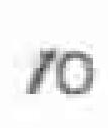10
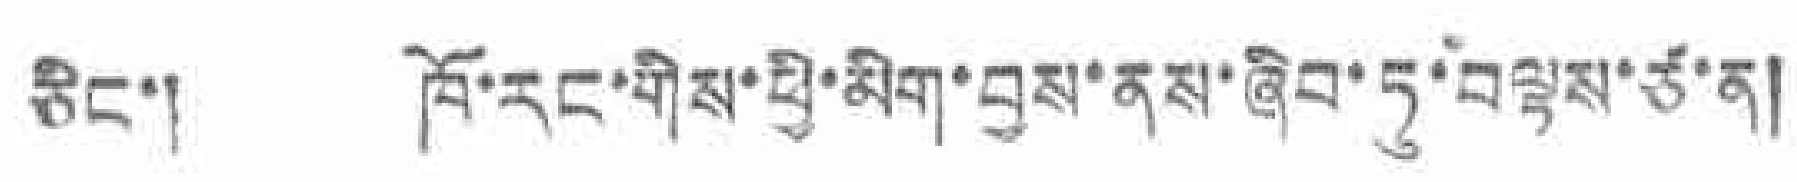ཅིང་། ཁོ་རང་གིས་ཕྱི་མིག་བྱས་ནས་ཞིབ་ཏུ་བལྟས་ཙ་ན།
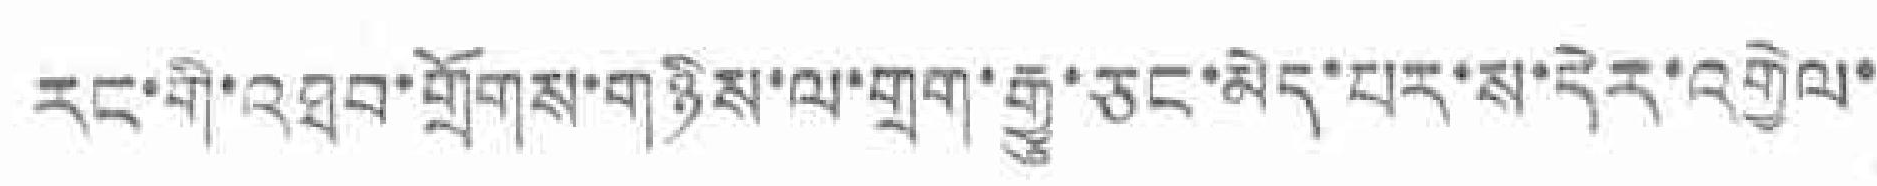རང་གི་འཐབ་གྲོགས་གཉིས་ལ་གྲག་རྒྱུ་ཅང་མེད་པར་ས་དེར་འགྱེལ་
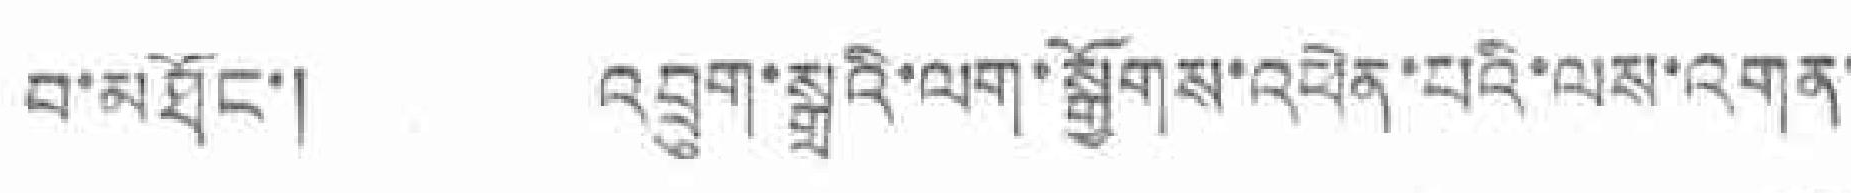བ་མཐོང་། འབྲུག་སྒྲའི་ལག་སྒྱོགས་འཕེན་པའི་ལས་འགན་
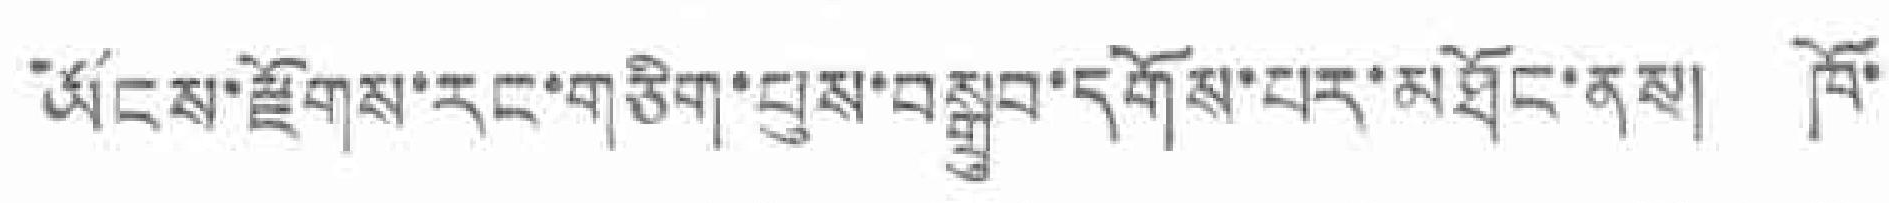ཡོངས་རྫོགས་རང་གཅིག་པུས་བསྒྲུབ་དགོས་པར་མཐོང་ནིས། ཁོ་
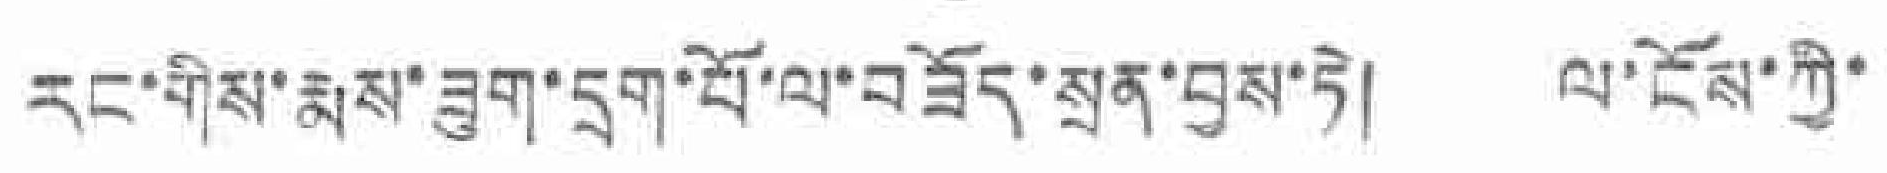རང་གིས་རྨས་ཟུག་དྲག་པོ་ལ་བཟོད་སྲན་བྱས་ཏེ། ལ་ངོས་ཀྱི་
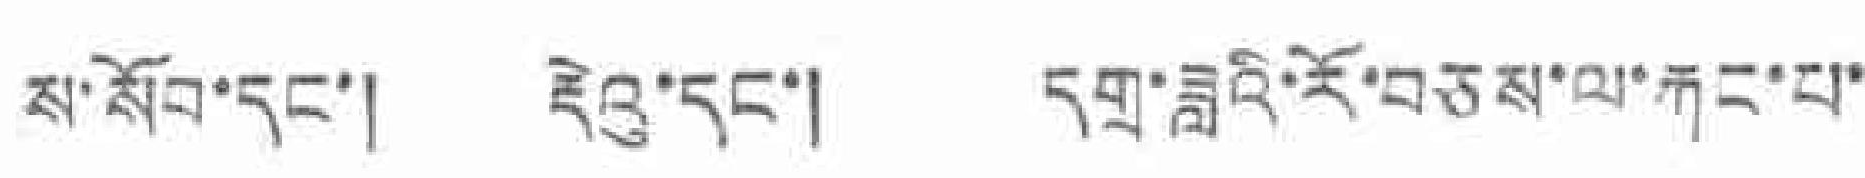ས་སོབ་དང་། རྡེའུ་དང་། དགྲ་ཟླའི་རོ་བཅས་ལ་རྐང་པ་
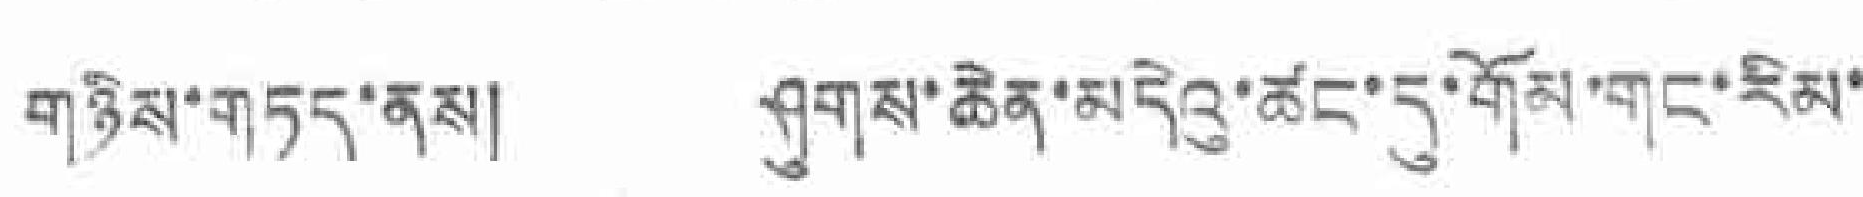གཉིས་གཏད་ནས། ཤུགས་ཆེན་མདེའུ་ཚང་དུ་གོམ་གང་རིམ་
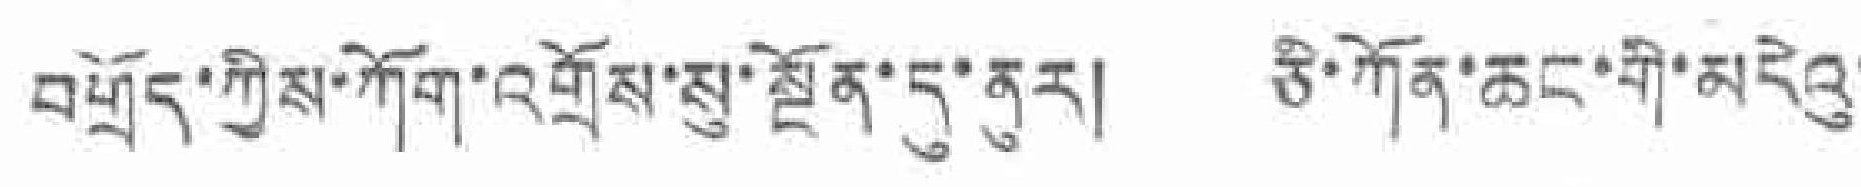བགྲོད་ཀྱིས་ཀོག་འགྲོས་སུ་སྔོན་དུ་ནུར། ཅི་ཀོན་ཆང་གི་མདེའུ་
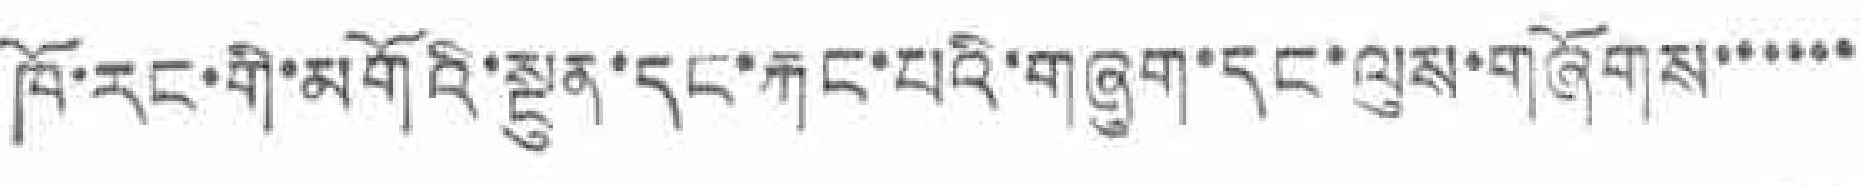ཁོ་རང་གི་མགོའི་སྔུན་དང་རྐང་པའི་གཞུག་དང་ལུས་གཞོགས་་་་་་
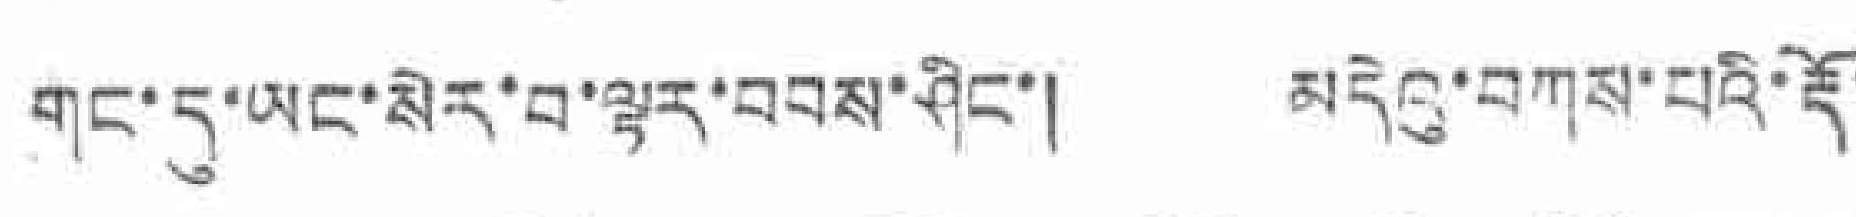གང་དུ་ཡང་སེར་བ་ལྟར་བབས་ཤིང་། མདེའུ་བཀས་པའི་རྡོ་
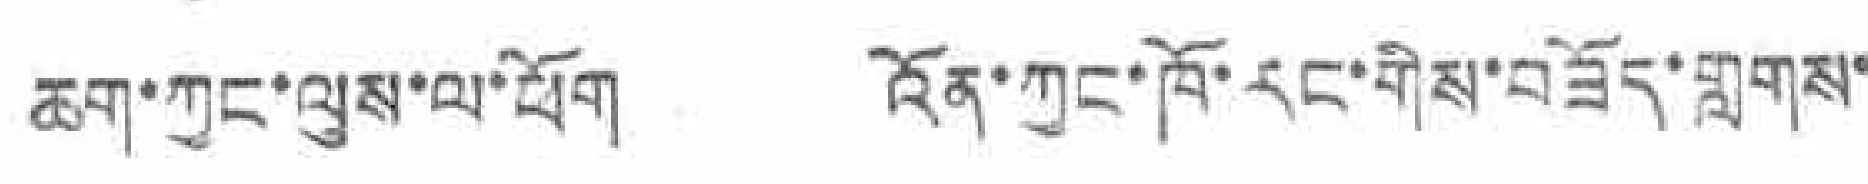ཆག་ཀྱང་ལུས་ལ་ཕོག འོན་ཀྱང་ཁོ་རང་གིས་བཟོད་གླགས་
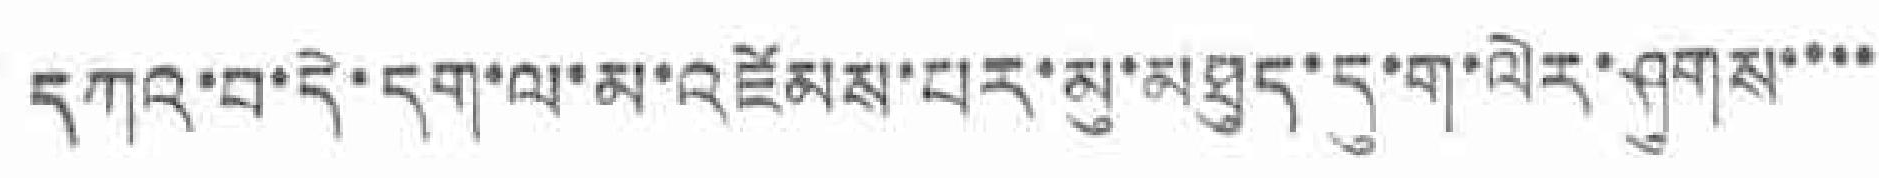དཀའ་བ་དེ་དག་ལ་མ་འཛོམས་པར་མུ་མཐུད་དུ་ག་ལེར་ཤུགས་་་་
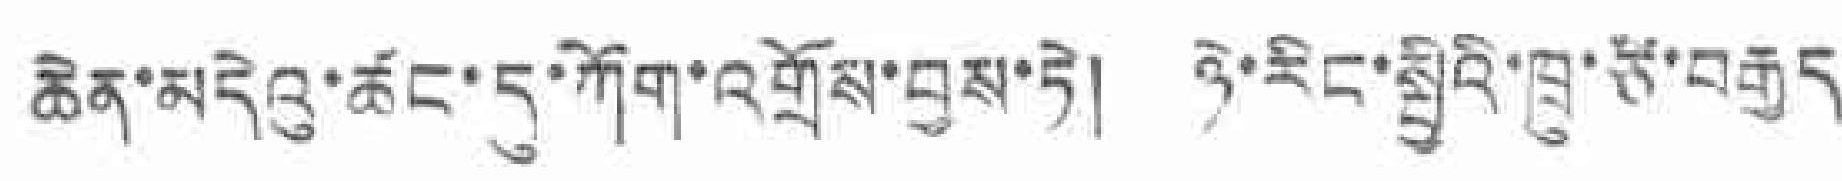ཆེན་མདེའུ་ཚང་དུ་ཀོག་འགྲོས་བྱས་ཏེ། ཉེ་རིང་སྤྱིའི་ཁྲུ་ཙི་བརྒྱད་
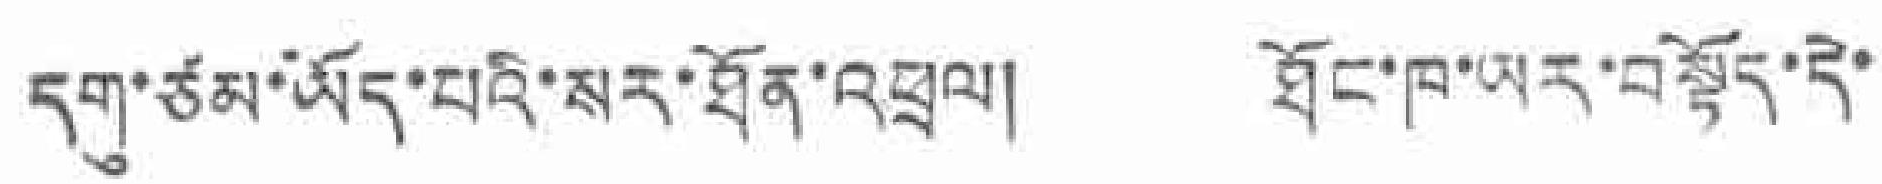དགུ་ཙམ་ཡོད་པའི་སར་ཐོན་འཕྲལ། ཐོང་ཁ་ཡར་བསྟོད་དེ་
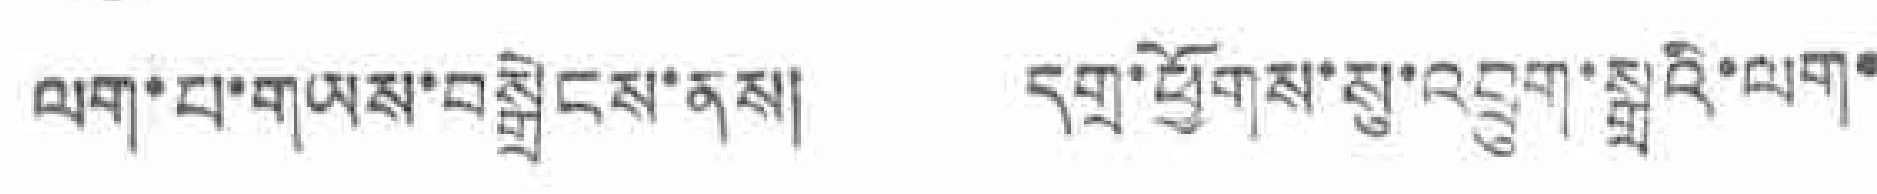ལག་པ་གཡས་བསྒྲེངས་ནས། དགྲ་ཕྱོགས་སུ་འབྲུག་སྒྲའི་ལག་
